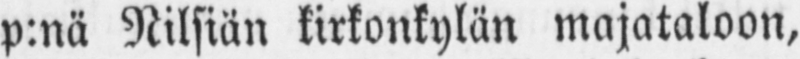p:nä Nilsiän kirkonkylän majataloon,
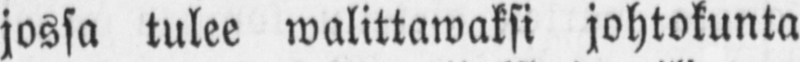jossa tulee walittawaksi johtokunta
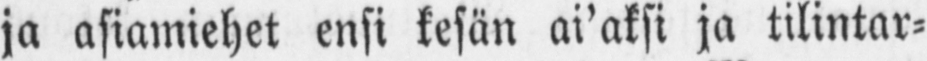ja asiamiehet ensi kesän ai'aksi ja tilintar-
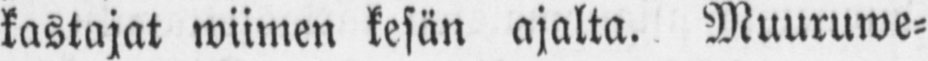kastajat wiimen kesän ajalta. Muuruwe-
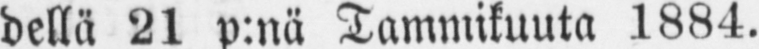dellä 21 p:nä Tammikuuta 1884.
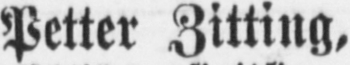Petter Zitting,
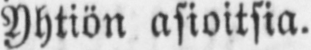Yhtiön asioitsia.
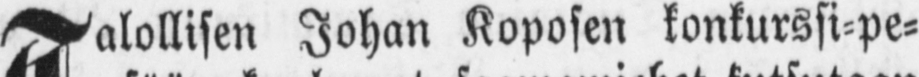Talollisen Johan Koposen konkurssi-pe-
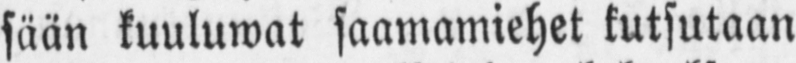sään kuuluwat saamamiehet kutsutaan
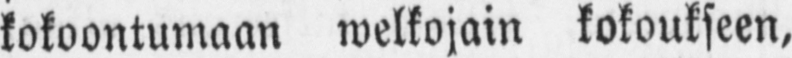kokoontumaan welkojain kokoukseen,
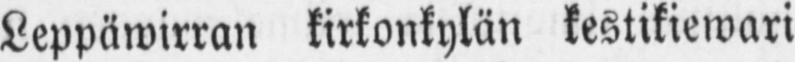Leppäwirran kirkonkylän kestikiewari
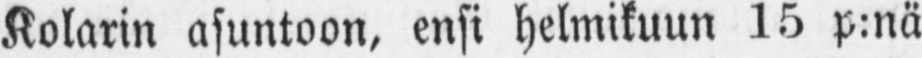Kolarin asuntoon, ensi helmikuun 15 p:nä
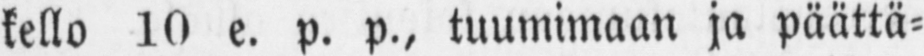kello 10 e. p. p., tuumimaan ja päättä-
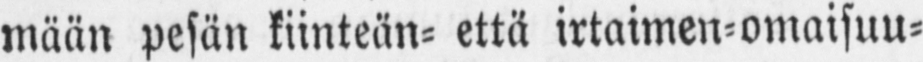mään pesän kiinteän- että irtaimen-omaisuu-
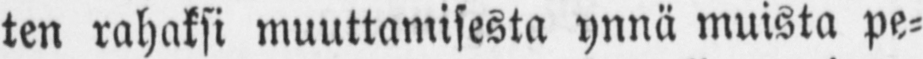ten rahaksi muuttamisesta ynnä muista pe-
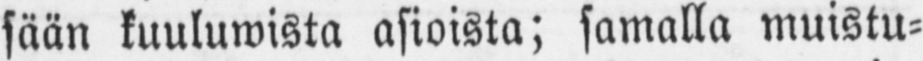sään kuuluwista asioista; samalla muistu-
